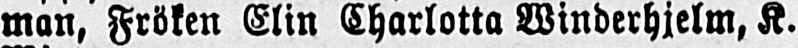man, Fröken Elin Charlotta Winderhjelm, K.
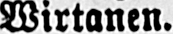Wirtanen.
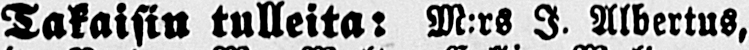Takaisin tulleita: M:rs I. Albertus,
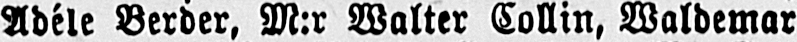Adéle Berder, M:r Walter Collin, Waldemar
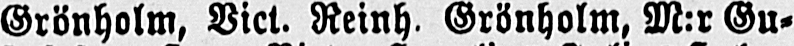Grönholm, Vict. Reinh. Grönholm, M:r Gu-
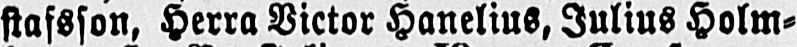stafsson, Herra Victor Hanelius, Julius Holm-
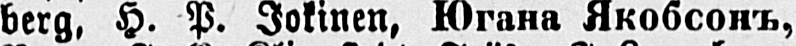berg, H. P. Jokinen, Югaнa Якoбoнъ,
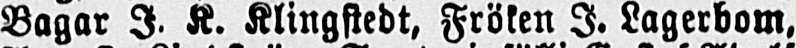Bagar I. K. Klingstedt, Fröken I. Lagerbom.
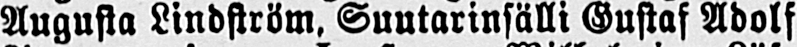Augusta Lindström. Suutarinsälli Gustaf Adolf
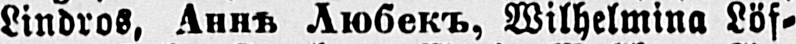Lindros, Аннъ λЮбeкъ Wilhelmina Löf-
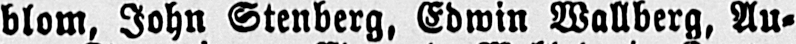blom, John Stenberg, Edwin Wollberg, Au-
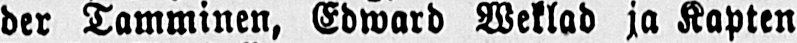der Tamminen, Edward Weklad ja Kapten
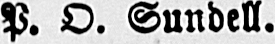P. O. Sundell.
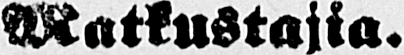Matkustajia.
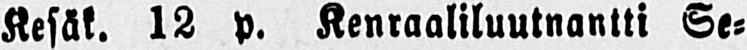Kesäk. 12 p. Kenraaliluutnantti Se-
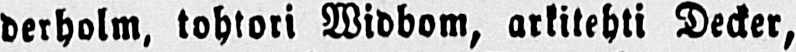derholm, tohtori Widbom, arkitehti Decker,
